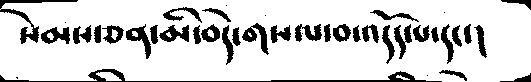སེམས་ཅན་མི་བདེ་གསལ་བ་འདོད་པ་དང་།
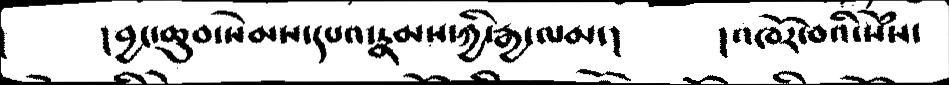།བྱང་ཆུབ་སེམས་དཔའ་རྣམས་ཀྱི་རྒྱ་ལམ་།        །འཁོར་བའི་སེཾས་
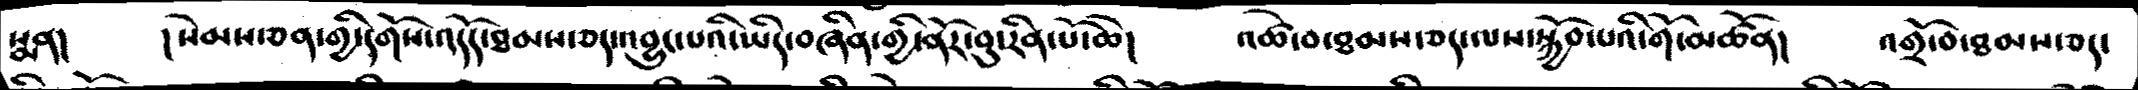སྨན།    །སེམས་ཅན་གྱི་དགོས་འདོད་ཐམས་ཅད་འབྱུང་པའི་ཡིད་བཞིན་གྱི་ནོར་བུ་རིན་པོ་ཆེ།     འཚེ་བ་ཐམས་ཅད་ལས་སྐྱོབ་པའི་གོ་མཚོན།   འགྲོ་བ་ཐམས་ཅད་
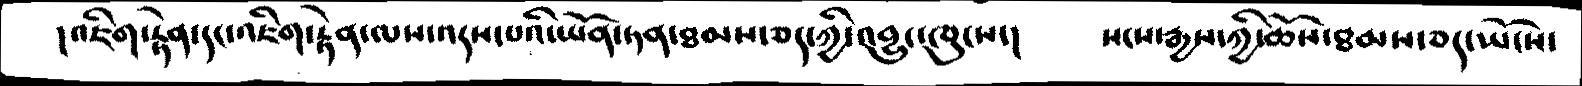།འཇིག་རྟེན་དང་འཇིག་རྟེན་ལས་འདས་པའི་ཡོན་ཏན་ཐམས་ཅད་ཀྱི་འབྱུང་ཁུངས་།     སངས་རྒྱས་ཀྱི་ཆོས་ཐམས་ཅད་ཡོངས་
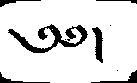༄༅།
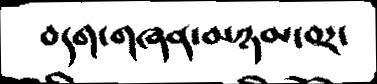བདག་གཞན་མཉམ་བར་
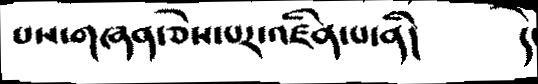པས་གཞན་ཅེས་པར་འཛིན་པ་ནི།      དེ་
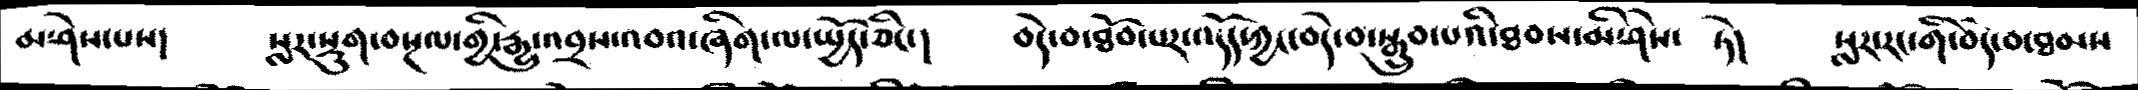མ་ཤེས་པས་།     སླར་སྡུག་བསྔལ་གྱི་རྒྱུ་འབྲས་འབའ་ཞིག་ལ་སྤྱོད་ཅིང་།  བདེ་བ་ཐོབ་པར་འདོད་ཀྱང་བདེ་བ་སྒྲུབ་པའི་ཐབས་མི་ཤེས་  ཏེ།     སླར་རང་གི་བདེ་བ་ཐམས་
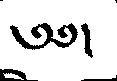༄༅།
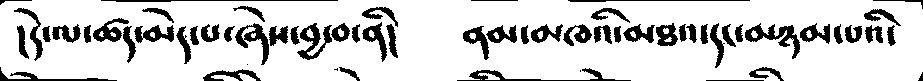།དེ་ལ་ཚད་མེད་པ་ཞེས་བྱ་བ་ནི།      ནམ་མཁའི་མཐའ་དང་མཉམ་པའི་
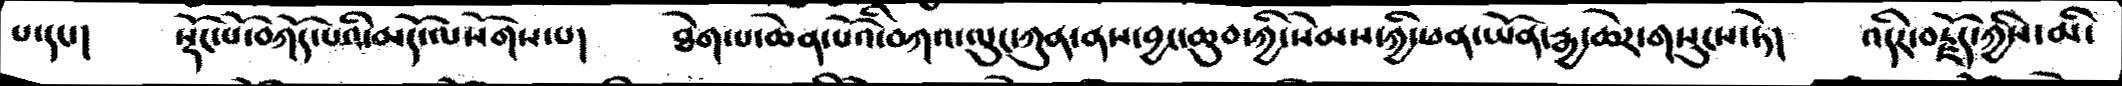པ་དང།    སྡོང་པོ་བཀོད་པའི་མདོ་ལསོགས་པ།    ཐེག་པ་ཆེན་པོའི་བཀའ་ལུང་ཀུན་ནས་བྱང་ཆུབ་ཀྱི་སེམས་ཀྱི་ཕན་ཡོན་རྒྱ་ཆེར་གསུངས་ཏེ།    འདིར་བརྗོད་ཀྱིས་མི་
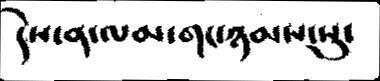དེས་ན་ལམ་གང་ཉམས་སུ་
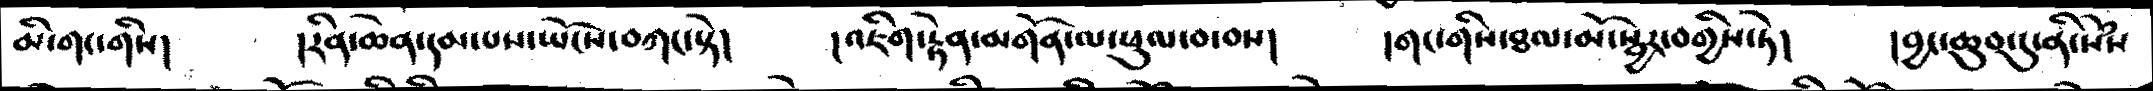མི་གང་གིས།   །རིན་ཆེན་དམ་པས་ཡོངས་བཀང་སྟེ།   །འཇིག་རྟེན་མགོན་ལ་ཕུལ་བ་བས།   །གང་གིས་ཐལ་མོ་སྦྱར་བགྱིས་ཏེ།   །བྱང་ཆུབ་དུ་ནི་སེཾས
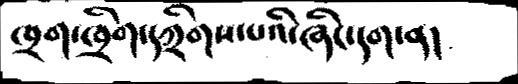ཁྲག་ཁྲིག་དཀྲིགས་པའི་ཞིང་དག་ན།
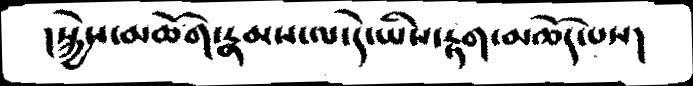།སྐྱེས་མཆོག་རྣམས་ལ་དེ་ཡིས་རྟག་མཆོད་པས།
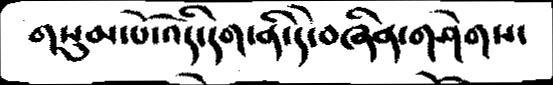གསུམ་པོ་འདི་དག་ནི་དེ་བཞིན་གཤེགས་
